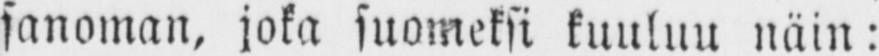sanoman, joka suomeksi kuuluu näin:
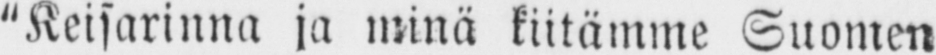"Keisarinna ja minä kiitämme Suomen
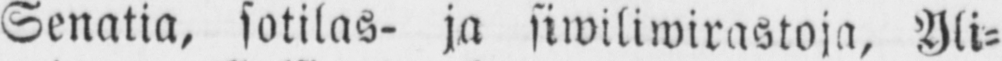Senatia, sotilas- ja siwiliwirastoja, Yli-
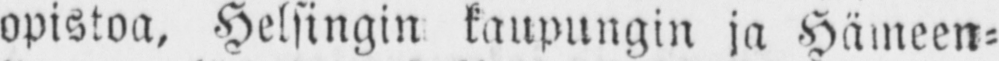opistoa, Helsingin kaupungin ja Hämeen-
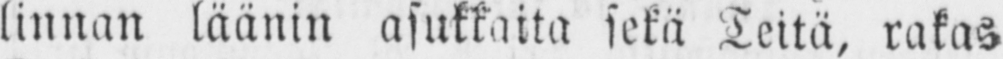linnan läänin asukkaita sekä Teitä, rakas
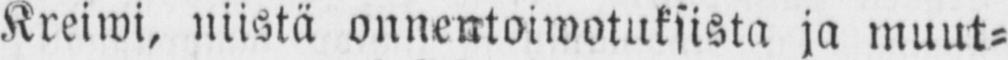Kreiwi, niistä onnentoiwotuksista ja muut-
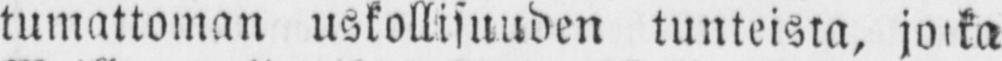tumattoman uskollisuuden tunteista, jotka
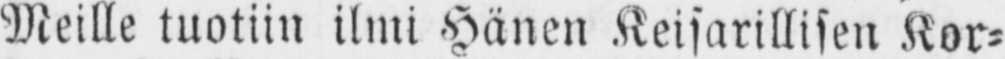Meille tuotiin ilmi Hänen Keisarillisen Kor-
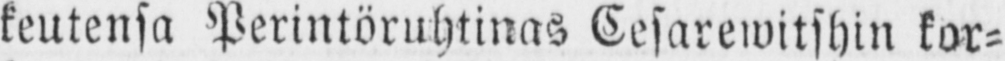keutensa Perintöruhtinas Cesarewitshin kor-
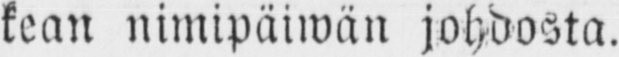kean nimipäiwän johdosta.
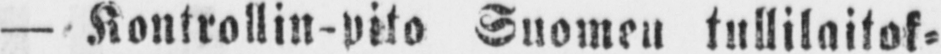— Kontrollin-pito Suomen tullilaitok-
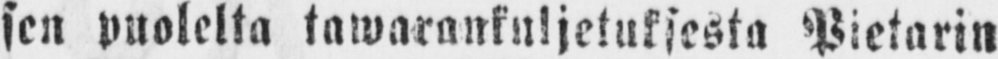sen puolelta tawarankuljetuksesta Pietarin
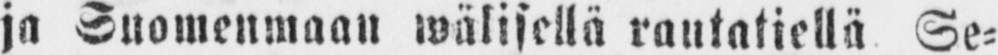ja Suomenmaan wälisellä rautatiellä Se-
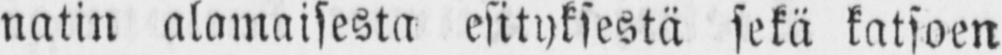natin alamaisesta esityksestä sekä katsoen
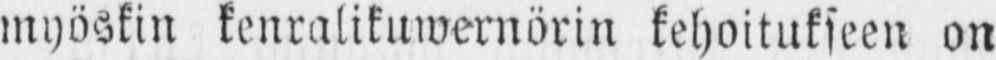myöskin kenralikuwernörin kehoitukseen on
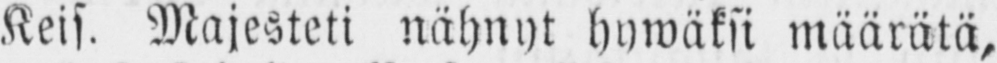Keis. Majesteti nähnyt hywäksi määrätä,
